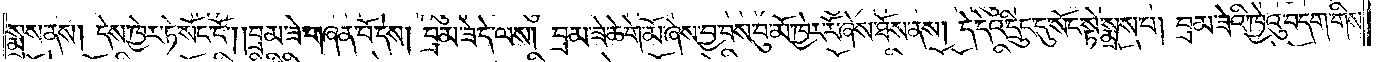སྨྲས་ནས། དེས་ཁྱེར་ཏེ་སོང་ངོ༌། །བྲམ་ཟེ་གཞན་པོ་དེས། བྲམ་ཟེ་དེ་ལས། བྲམ་ཟེ་ཆེ་གེ་མོ་ཞེས་བྱ་བས་བུ་མོ་ཁྱེར་རོ་ཞེས་ཐོས་ནས། དེ་དེའི་དྲུང་དུ་སོང་སྟེ་སྨྲས་པ། བྲམ་ཟེའི་ཁྱེའུ་བདག་གིས་
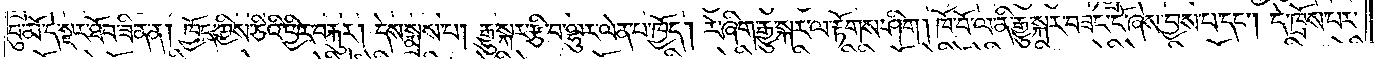བུ་མོ་དེ་སྔར་ཐོབ་ཟིན་ན། ཁྱོད་ཀྱིས་ཅིའི་ཕྱིར་བརྐུར། དེས་སྨྲས་པ། རྒྱུ་སྐར་རྩི་བ་ལྷུར་ལེན་པ་ཁྱོད། རེ་ཞིག་རྒྱུ་སྐར་ལ་རྟོགས་ཤིག །ཁོ་བོ་ལ་ནི་རྒྱུ་སྐར་བཟང་ངོ་ཞེས་བྱས་པ་དང༌། དེ་ཁྲོས་པར་
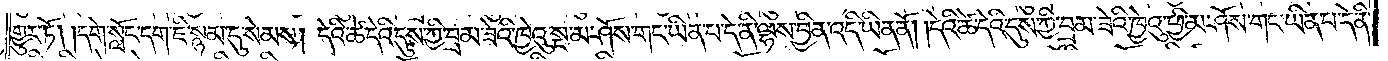གྱུར་ཏོ། །དགེ་སློང་དག་ཇི་སྙམ་དུ་སེམས། དེའི་ཚེ་དེའི་དུས་ཀྱི་བྲམ་ཟེའི་ཁྱེའུ་སྔ་མ་ཤོས་གང་ཡིན་པ་དེ་ནི་ལྷས་བྱིན་འདི་ཉིད་ཡིན་ནོ། །དེའི་ཚེ་དེའི་དུས་ཀྱི་བྲམ་ཟེའི་ཁྱེའུ་ཕྱི་མ་ཤོས་གང་ཡིན་པ་དེ་ནི་
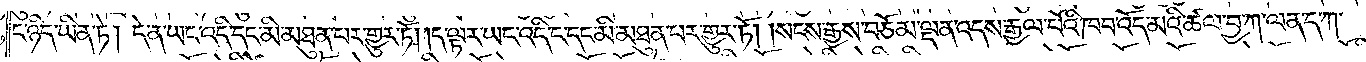ང་ཉིད་ཡིན་ཏེ། དེ་ན་ཡང་འདི་དང་མི་མཐུན་པར་གྱུར་ཏོ། །ད་ལྟར་ཡང་འདི་ང་དང་མི་མཐུན་པར་གྱུར་ཏོ། །སངས་རྒྱས་བཅོམ་ལྡན་འདས་རྒྱལ་པོའི་ཁབ་འོད་མའི་ཚལ་བྱ་ཀ་ལན་ད་ཀ་
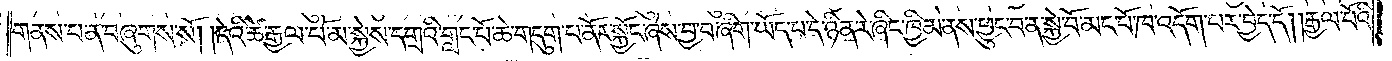གནས་པ་ན་བཞུགས་སོ། །དེའི་ཚེ་རྒྱལ་པོ་མ་སྐྱེས་དགྲའི་གླང་པོ་ཆེ་གདུག་པ་ནོར་སྐྱོང་ཞེས་བྱ་བ་ཞིག་ཡོད་པ་དེ་ཉིན་རེ་ཞིང་ཁྱིམ་ནས་ཕྱུང་བ་ན་སྐྱེ་བོ་མང་པོ་ཁ་འདོག་པར་བྱེད་དོ། །རྒྱལ་པོའི་
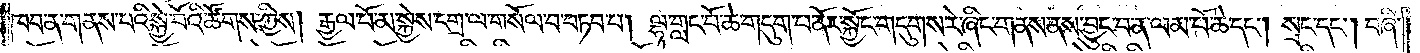ཁབ་ན་གནས་པའི་སྐྱེ་བོའི་ཚོགས་ཀྱིས། རྒྱལ་པོ་མ་སྐྱེས་དགྲ་ལ་གསོལ་བ་བཏབ་པ། ལྷ་གླང་པོ་ཆེ་གདུག་པ་ནོར་སྐྱོང་གདུགས་རེ་ཞིང་གནས་ནས་བྱུང་བ་ན་ལམ་པོ་ཆེ་དང༌། སྲང་དང༌། བཞི་
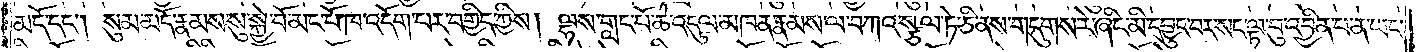མདོ་དང༌། སུམ་མདོ་རྣམས་སུ་སྐྱེ་བོ་མང་པོ་ཁ་འདོག་པར་བགྱིད་ཀྱིས། ལྷས་གླང་པོ་ཆེ་འདུལ་མཁན་རྣམས་ལ་བཀའ་སྩལ་ཏེ་ཅི་ནས་གདུགས་རེ་ཞིང་མི་དབྱུང་བར་སང་ལྟ་བུ་འབྱིན་པ་ན་ཡང་
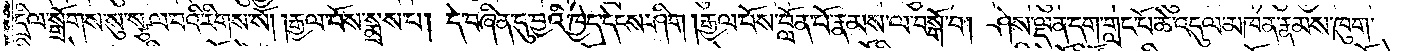དྲིལ་སྒྲོགས་སུ་སྩལ་པའི་རིགས་སོ། །རྒྱལ་པོས་སྨྲས་པ། དེ་བཞིན་དུ་བྱའི་ཁྱེད་དེངས་ཤིག །རྒྱལ་པོས་བློན་པོ་རྣམས་ལ་བསྒོ་བ། ཤེས་ལྡན་དག་གླང་པོ་ཆེ་འདུལ་མཁན་རྣམས་ཁུག་
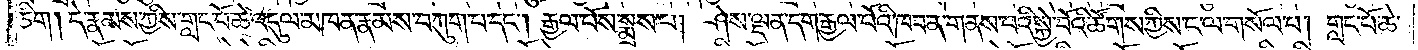ཅིག །དེ་རྣམས་ཀྱིས་གླང་པོ་ཆེ་འདུལ་མཁན་རྣམས་བཀུག་པ་དང༌། རྒྱལ་པོས་སྨྲས་པ། ཤེས་ལྡན་དག་རྒྱལ་པོའི་ཁབ་ན་གནས་པའི་སྐྱེ་བོའི་ཚོགས་ཀྱིས་ང་ལ་གསོལ་བ། གླང་པོ་ཆེ་
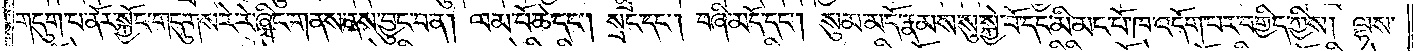གདུག་པ་ནོར་སྐྱོང་གདུགས་རེ་རེ་ཞིང་གནས་ནས་བྱུང་བ་ན། ལམ་པོ་ཆེ་དང༌། སྲང་དང༌། བཞི་མདོ་དང༌། སུམ་མདོ་རྣམས་སུ་སྐྱེ་བོ་དང་མི་མང་པོ་ཁ་འདོག་པར་བགྱིད་ཀྱིས། ལྷས་
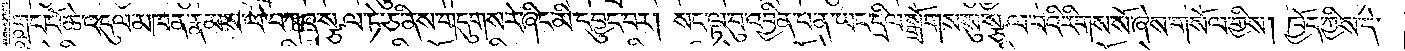གླང་པོ་ཆེ་འདུལ་མཁན་རྣམས་ལ་བཀའ་སྩལ་ཏེ་ཅི་ནས་གདུགས་རེ་ཞིང་མི་དབྱུང་བར། སང་ལྟ་བུ་འབྱིན་པ་ན་ཡང་དྲིལ་སྒྲོགས་སུ་སྩལ་པའི་རིགས་སོ་ཞེས་གསོལ་གྱིས། ཁྱོད་ཀྱིས་དེ་
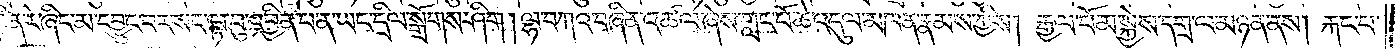ཉིན་རེ་ཞིང་མ་དབྱུང་བར་སང་ལྟ་བུ་འབྱིན་པ་ན་ཡང་དྲིལ་སྒྲོགས་ཤིག །ལྷ་བཀའ་བཞིན་འཚལ་ཞེས་གླང་པོ་ཆེ་འདུལ་མཁན་རྣམས་ཀྱིས། རྒྱལ་པོ་མ་སྐྱེས་དགྲ་ལ་མཉན་ནས། རྐང་པ་
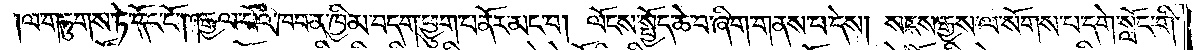།ལ་གཏུགས་ཏེ་དོང་ངོ༌། །རྒྱལ་པོའི་ཁབ་ན་ཁྱིམ་བདག་ཕྱུག་པ་ནོར་མང་བ། ལོངས་སྤྱོད་ཆེ་བ་ཞིག་གནས་པ་དེས། སངས་རྒྱས་ལ་སོགས་པ་དགེ་སློང་གི་
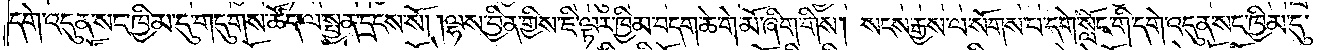དགེ་འདུན་སང་ཁྱིམ་དུ་གདུགས་ཚོད་ལ་སྤྱན་དྲངས་སོ། །ལྷས་བྱིན་གྱིས་ཇི་ལྟར་ཁྱིམ་བདག་ཆེ་གེ་མོ་ཞིག་གིས། སངས་རྒྱས་ལ་སོགས་པ་དགེ་སློང་གི་དགེ་འདུན་སང་ཁྱིམ་དུ་
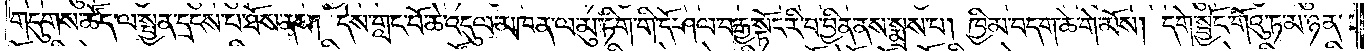གདུགས་ཚོད་ལ་སྤྱན་དྲངས་པ་ཐོས་ནས། དེས་གླང་པོ་ཆེ་འདུལ་མཁན་ལ་མུ་ཏིག་གི་དོ་ཤལ་བརྒྱ་སྟོང་རི་བ་བྱིན་ནས་སྨྲས་པ། ཁྱིམ་བདག་ཆེ་གེ་མོས། དགེ་སྦྱོང་གོའུ་ཏ་མ་ཉན་
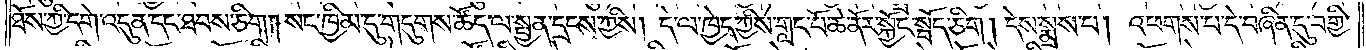ཐོས་ཀྱི་དགེ་འདུན་དང་ཐབས་ཅིག །སང་ཁྱིམ་དུ་གདུགས་ཚོད་ལ་སྤྱན་དྲངས་ཀྱིས། དེ་ལ་ཁྱེད་ཀྱིས་གླང་པོ་ཆེ་ནོར་སྐྱོང་སྦོད་ཅིག །དེས་སྨྲས་པ། འཕགས་པ་དེ་བཞིན་དུ་བགྱི་
